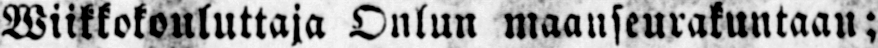Wiikkokouluttaja Onlun maanseurakuntaan;
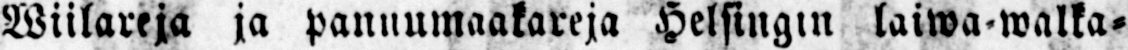Wiilareja ja pannumaakareja Helsingin laiwa-walka-
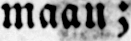maan;
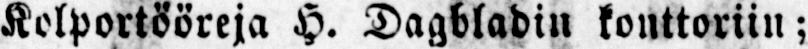Kolportööreja H. Dagbladin kouttoriin;
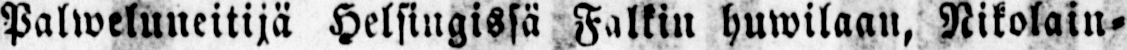Palweluneitijä Helsingissä Falkin huwilaan, Nikolain-
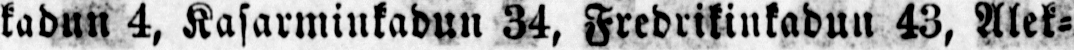kadun 4, Kasarminkadun 34, Fredrikinkadun 43, Alek-
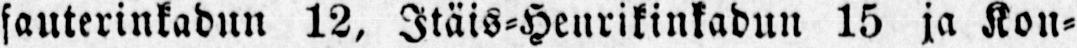sauterinkadun 12, Itäis-Henrikinkadun 15 ja Kon-
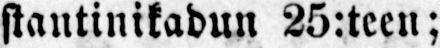stantinikadun 25:teen;
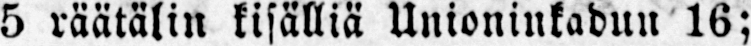5 räätälin kisälliä Unioninkadun 16;
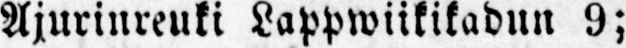Ajurinreuki Lappwiikikadun 9;
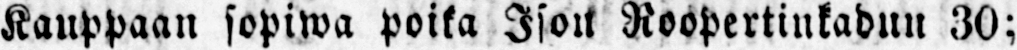Kauppaan sopiwa poika Ison Roopertinkadun 30;
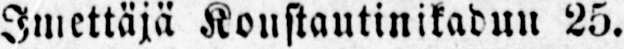Imettäjä Koustautinikadun 25.
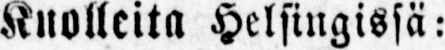Kuolleita Helsingissä:
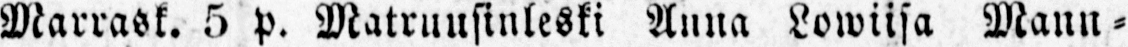Marrask. 5 p. Matruusinleski Anna Lowiisa Mann-
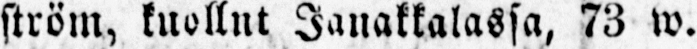ström, kuollnt Janakkalassa, 73 w.
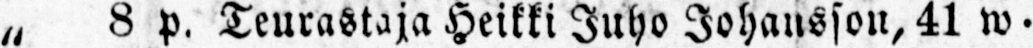„ 8 p. Teurastaja Heikki Juho Johansson, 41 w. -
